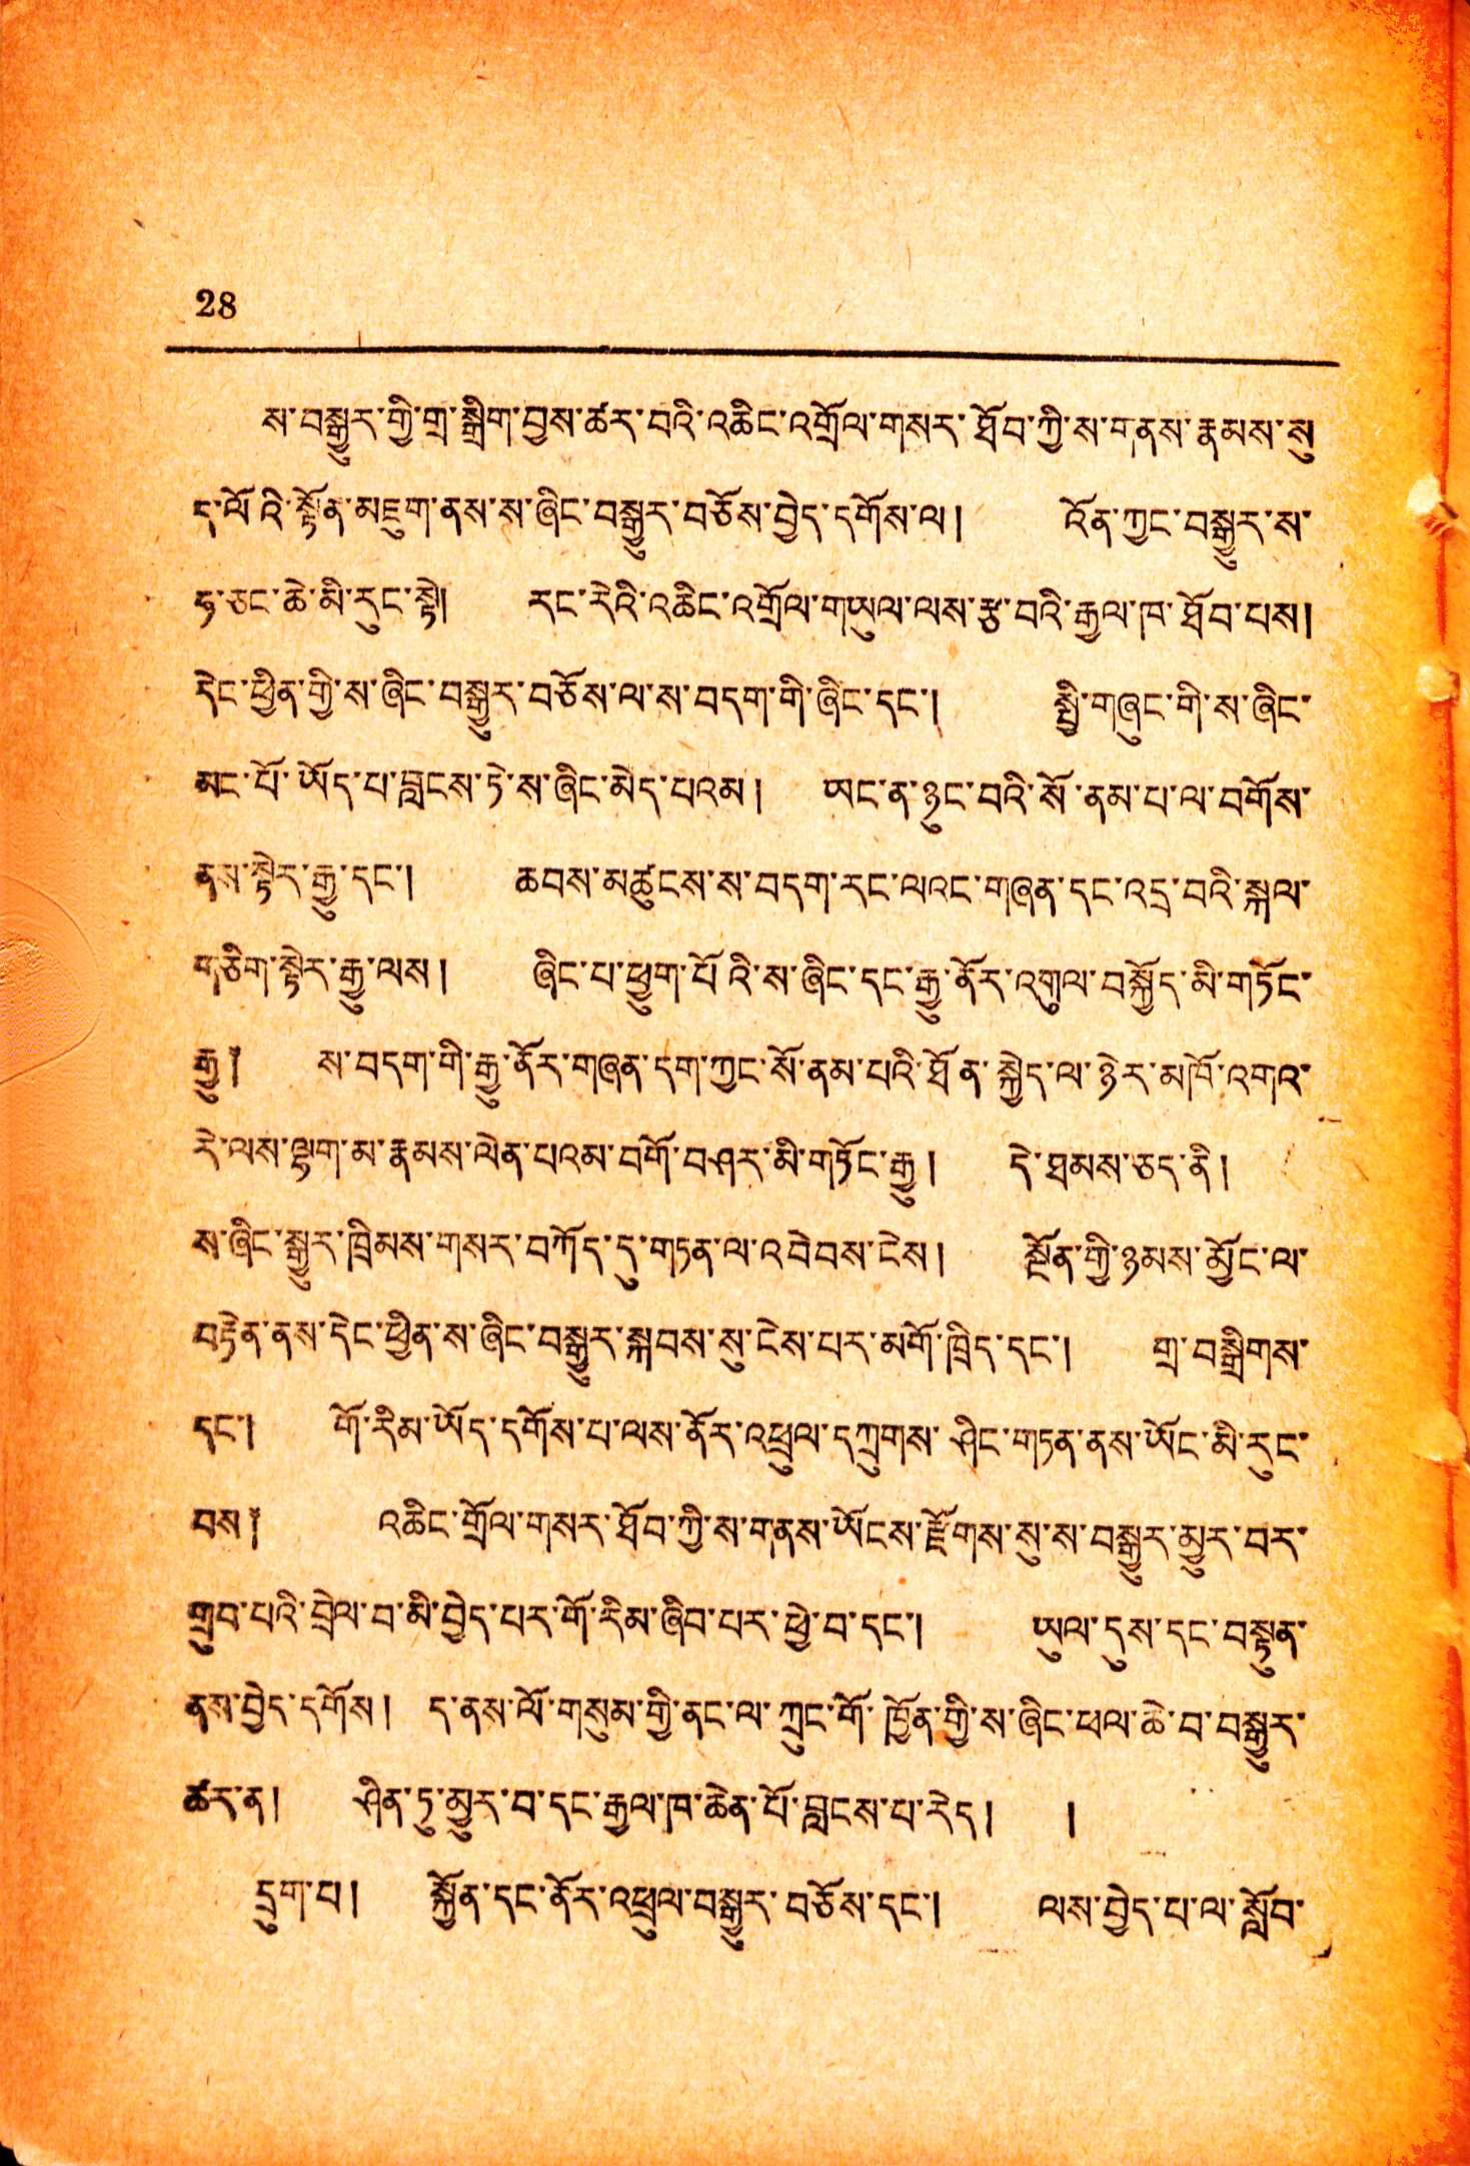28
ས་བསྒྱུར་གྱི་གྲ་སྒྲིག་བྱས་ཚར་བའི་འཆིང་འགྲོལ་གསར་ཐོབ་ཀྱི་ས་གནས་རྣམས་སུ
ད་ལོའི་སྟོན་མཇུག་ནས་ས་ཞིང་བསྒྱུར་བཅོས་བྱེད་དགོས་ལ ། འོན་ཀྱང་བསྒྱུར་ས་
ཧ་ཅང་ཆེ་མི་རུང་སྟེ། རང་རེའི་འཆིང་འགྲོལ་གཡུལ་ལས་རྩ་བའི་རྒྱལ་ཁ་ཐོབ་བས།
དེང་ཕྱིན་གྱི་ས་ཞིང་བསྒྱུར་བཅོས་ལ་ས་བདག་གི་ཞིང་དང་། སྤྱི་གཞུང་གི་ས་ཞིང་
མང་པོ་ཡོད་པ་བླངས་ཏེ་ས་ཞིང་མེད་པའམ། ཡང་ན་ཉུང་བའི་སོ་ནམ་པ་ལ་བགོས་
ནས་སྟེར་རྒྱུ་དང་། ཆབས་མཚུངས་ས་བདག་རང་ལའང་གཞན་དང་འདྲ་བའི་སྐལ་
གཅིག་སྟེར་རྒྱུ་ལས། ཞིང་པ་ཕྱུག་པོའི་ས་ཞིང་དང་རྒྱུ་ནོར་འགུལ་བསྐྱོད་མི་གཏོང་
རྒྱུ༐ ས་བདག་གི་རྒྱུ་ནོར་གཞན་དག་ཀྱང་སོ་ནས་པའི་ཐོན་སྐྱེད་ལ་ཉེར་མཁོ་འགའ་
རེ་ལས་ལྷག་མ་རྣམས་ལེན་པའམ་བགོ་བཤར་མི་གཏོང་རྒྱུ ། དེ་ཐམས་ཅད་ནི།
ས་ཞིང་སྒྱུར་ཁྲིམས་གསར་བཀོད་དུ་གཏན་ལ་འབེབས་ངེས ། སྔོན་གྱི་ཉམས་མྱོང་ལ་
བརྟེན་ནས་དེང་ཕྱིན་ས་ཞིང་བསྒྱུར་སྐབས་སུ་ངེས་པར་མགོ་ཁྲིད་དང་། གྲ་བསྒྲིགས་
དང་། གོ་རིམ་ཡོད་དགོས་པ་ལས་ནོར་འཕྲུལ་དཀྲུགས་ཤིང་གཏན་ནས་ཡོང་མི་རུང་
བས༐ འཆིང་གྲོལ་གསར་ཐོབ་ཀྱི་ས་གནས་ཡོངས་རྫོགས་སུ་ས་བསྒྱུར་མྱུར་བར་
གུབ་པའི་བྲེལ་བ་མི་བྱེད་པར་གོ་རིམ་ཞིབ་པར་ཕྱི་བ་དང་། ཡུལ་དུས་དང་བསྟུན
ནས་བྱེད་དགོས། ད་ནས་ལོ་གསུམ་གྱི་ནང་ལ་ཀྲུང་གོ་ཁྱོན་གྱི་ས་ཞིང་ཕལ་ཆེ་བ་བསྒྱུར་
ཚར་ན། ཤིན་ཏུ་མྱུར་བ་དང་རྒྱལ་ཁ་ཆེན་པོ་བླངས་པ་རེད ། །
དྲུག་པ། སྐྱོན་དང་ནོར་འཕྲུལ་བསྒྱུར་བཅོས་དང་། ལས་བྱེད་པ་ལ་སློབ་
